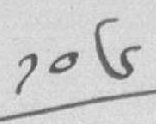༡༠༦
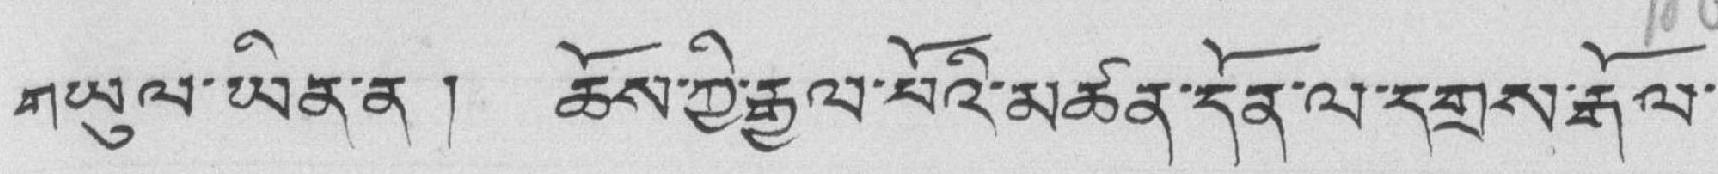གཡུལ་ཡིན་ན ། ཆོས་ཀྱི་རྒྱལ་པོའི་མཚན་དོན་ལ་དགྲས་རྒོལ་
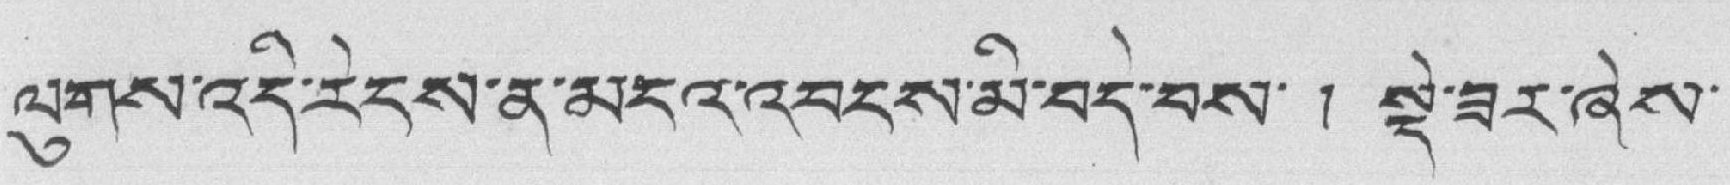ལུགས་འདི་རེངས་ན་མདའ་འབངས་མི་བདེ་བས་ ། སྡེ་ཟར་ཞེས་
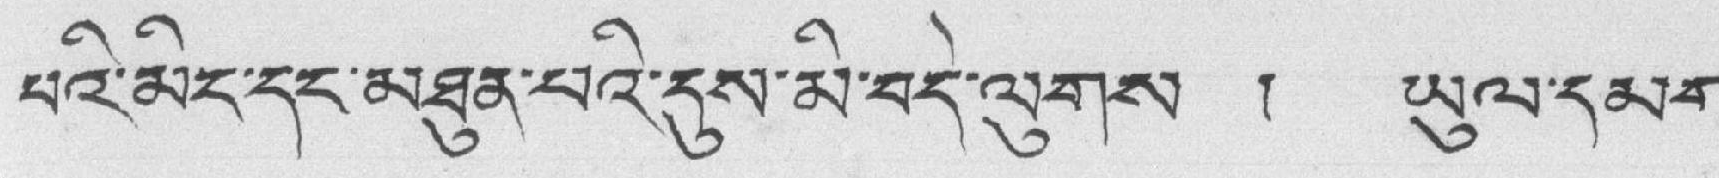པའི་མིང་དང་མཐུན་པའི་དུས་མི་བདེ་ལུགས ། ཡུལ་དམག་
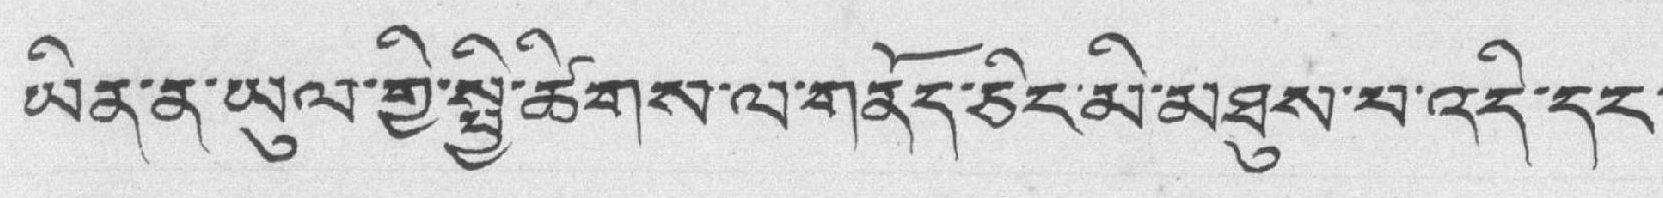ཡིན་ན་ཡུལ་གྱི་སྤྱི་ཚིགས་ལ་གནོད་ཅིང་མི་མཐུས་པ་འདི་དང་
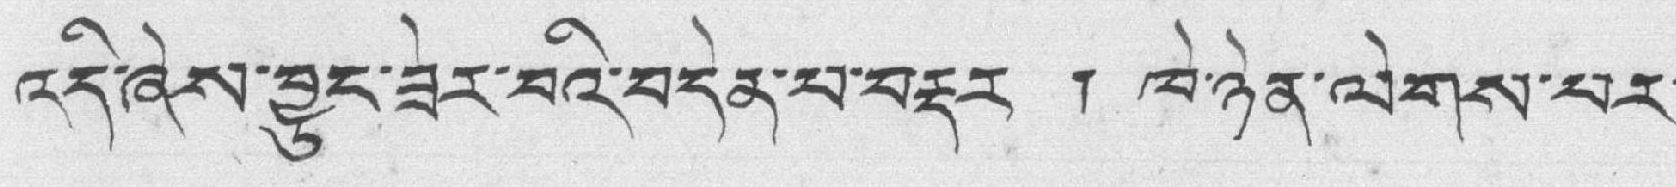འདི་ཞེས་བྱུང་ཟེར་བའི་བདེན་པ་བརྡར ། ཁེ་ཉེན་ལེགས་པར་
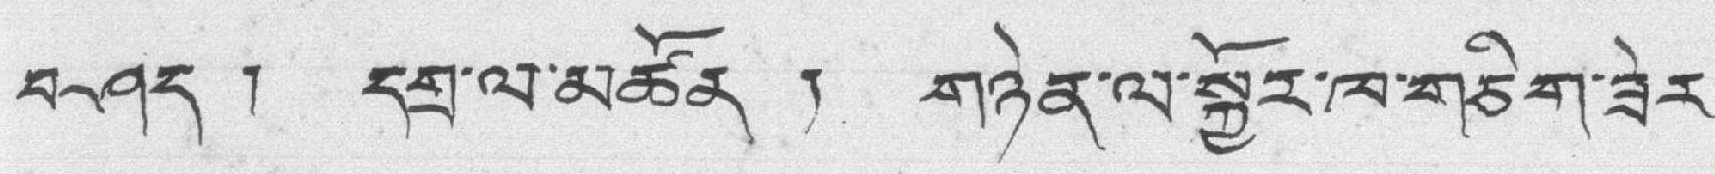བཤད ། དགྲ་ལ་མཚོན ། གཉེན་ལ་སྐྱོར་ལ་གཅིག་ཟེར་
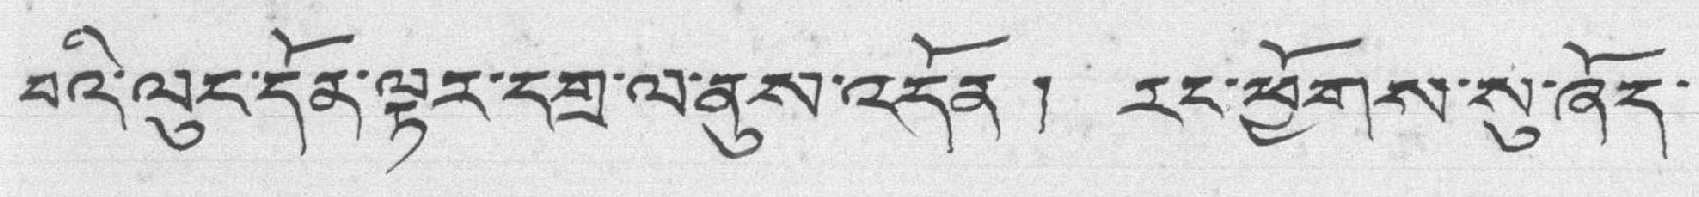བའི་ལུང་དོན་ལྟར་དགྲ་ལ་ནུས་འདོན ། རང་ཕྱོགས་སུ་ཞོད་
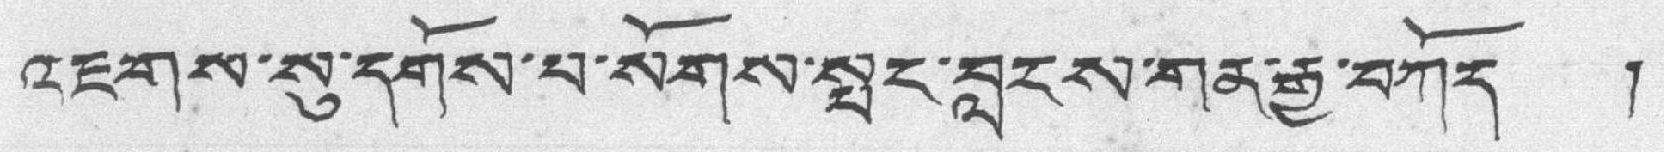འཇགས་སུ་དགོས་པ་སོགས་སྤང་བླངས་གན་རྒྱ་བཀོད །
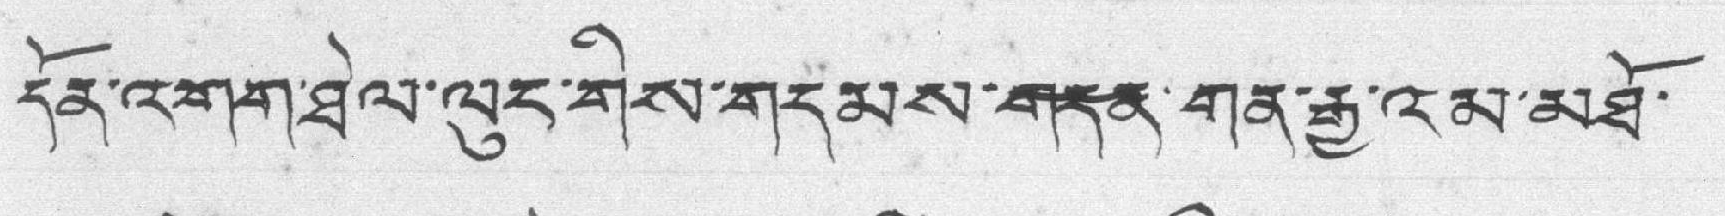དོན་འགག་ཐེལ་ལུང་གིས་གདམས་གདན་གན་རྒྱ་ལམ་མཐོ་
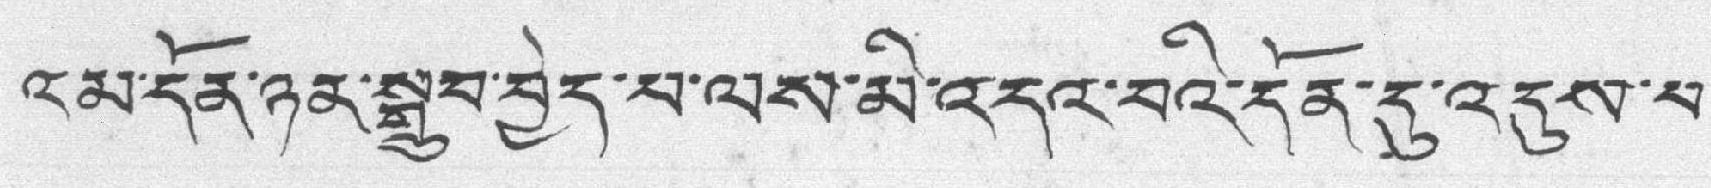འམ་དོན་ཉན་སྒྲུབ་བྱེད་པ་ལས་མི་འདའ་བའི་དོན་དུ་འདུས་པ་
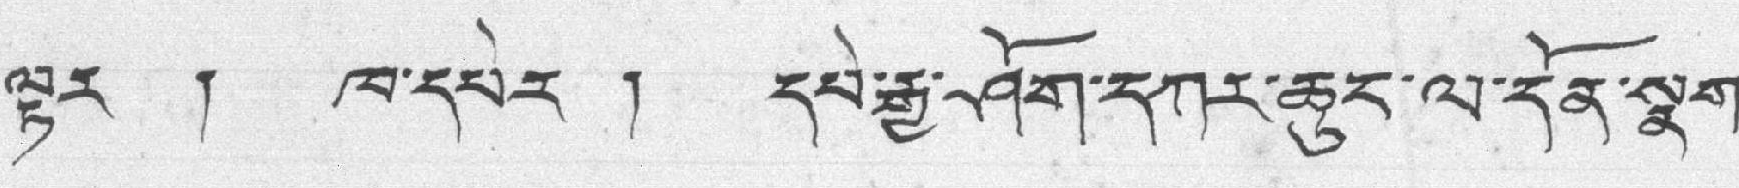ལྟར ། ཁ་དཔེར ། དཔེ་རྒྱ་ཤོག་དཀར་ཆུང་ལ་དོན་སྣག་
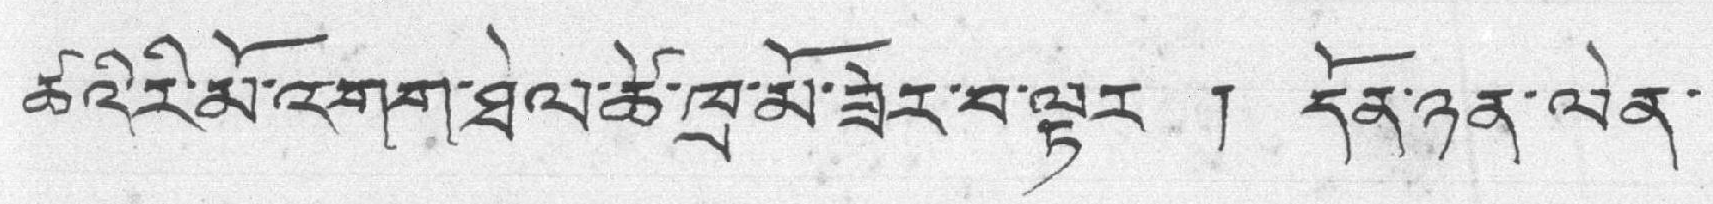ཚའི་རི་མོ་འགག་ཐེལ་ཚེ་ཁྲ་མོ་ཟེར་བ་ལྟར ། དོན་ཉན་ལེན་
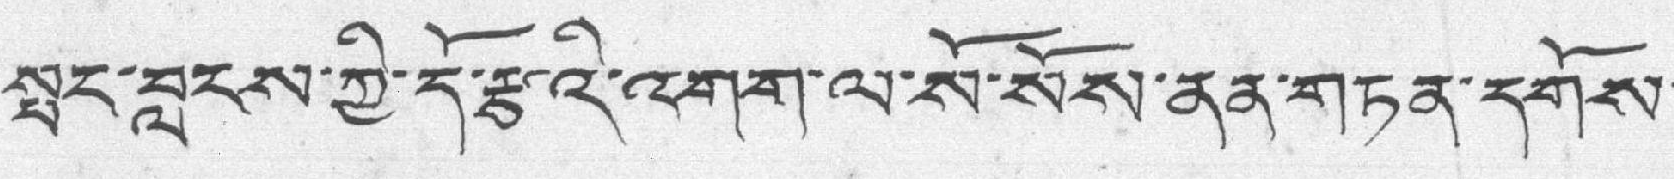སྤང་བླངས་ཀྱི་དོ་རྩའི་འགག་ལ་སོ་སོས་ནན་གཏན་དགོས་
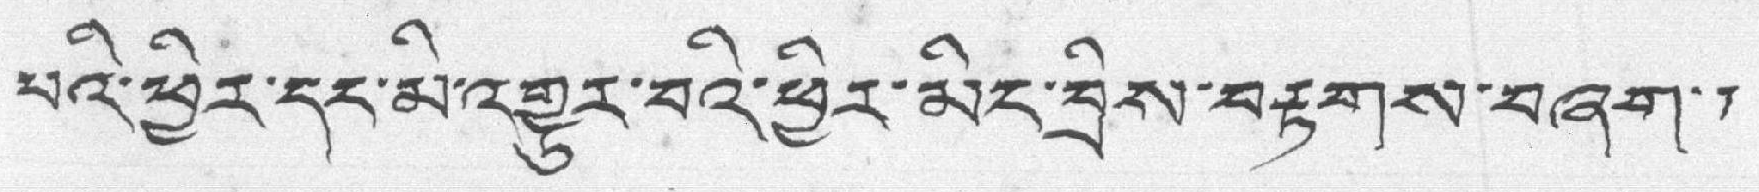པའི་ཕྱིར་དང་མི་འགྱུར་བའི་ཕྱིར་མིང་བྲིས་བརྟགས་བཞག་ །
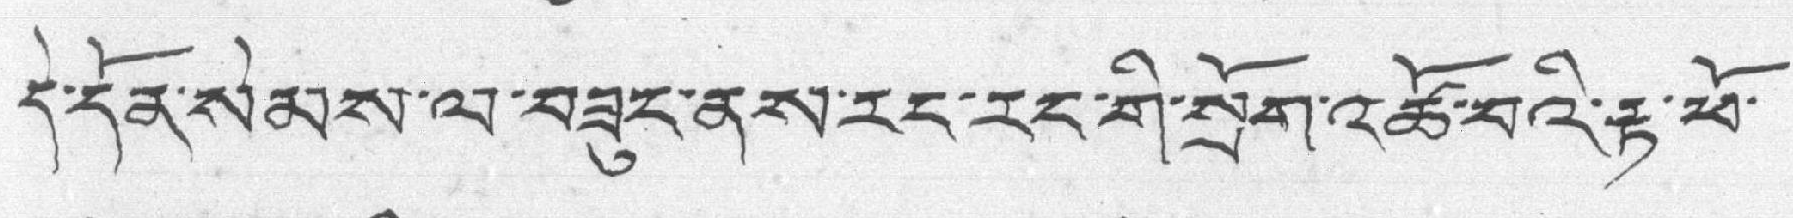དེ་དོན་སེམས་ལ་བཟུང་ནས་རང་རང་གི་སྲོག་འཚོ་བའི་རྟ་ཕོ་
